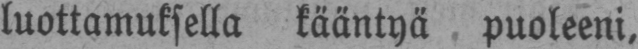luottamuksella kääntyä puoleeni,
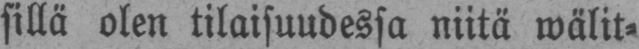sillä olen tilaisuudessa niitä wälit-
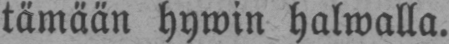tämään hywin halwalla.
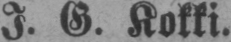I. G. Kokki.
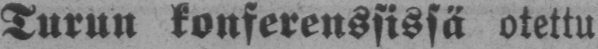Turun konferenssissä otettu
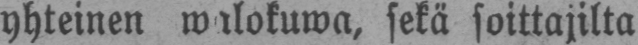yhteinen walokuwa, sekä soittajilta
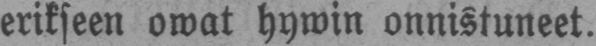erikseen owat hywin onnistuneet.
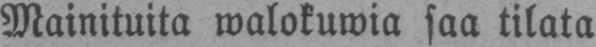Mainituita walokuwia saa tilata
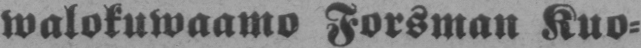walokuwaamo Forsman Kuo-
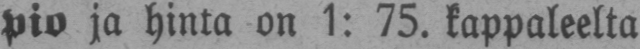pio ja hinta on 1: 75. kappaleelta
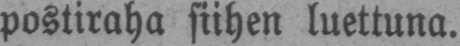postiraha siihen luettuna.
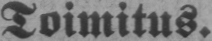Toimitus.
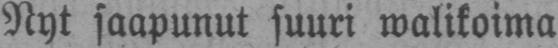Nyt saapunut suuri walikoima
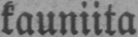kauniita
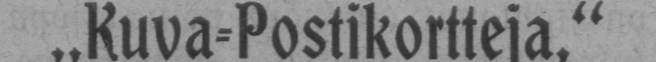„Kuva-Postikortteja,"
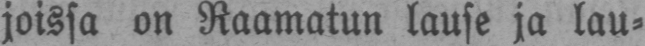joissa on Raamatun lause ja lau-
